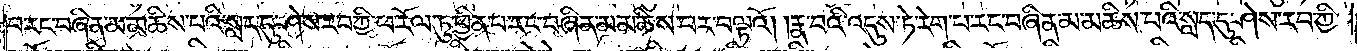པ་རང་བཞིན་མ་མཆིས་པའི་སླད་དུ་ཤེས་རབ་ཀྱི་ཕ་རོལ་ཏུ་ཕྱིན་པ་རང་བཞིན་མ་མཆིས་པར་བལྟའོ། །རྣ་བའི་འདུས་ཏེ་རེག་པ་རང་བཞིན་མ་མཆིས་པའི་སླད་དུ་ཤེས་རབ་ཀྱི་
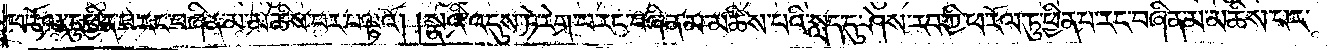ཕ་རོལ་ཏུ་ཕྱིན་པ་རང་བཞིན་མ་མཆིས་པར་བལྟའོ། །སྣའི་འདུས་ཏེ་རེག་པ་རང་བཞིན་མ་མཆིས་པའི་སླད་དུ་ཤེས་རབ་ཀྱི་ཕ་རོལ་ཏུ་ཕྱིན་པ་རང་བཞིན་མ་མཆིས་པར་
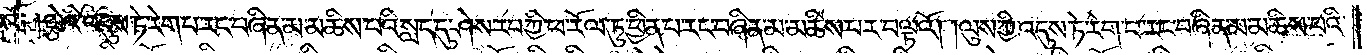བལྟའོ༑ །ལྕེའི་འདུས་ཏེ་རེག་པ་རང་བཞིན་མ་མཆིས་པའི་སླད་དུ་ཤེས་རབ་ཀྱི་ཕ་རོལ་ཏུ་ཕྱིན་པ་རང་བཞིན་མ་མཆིས་པར་བལྟའོ། །ལུས་ཀྱི་འདུས་ཏེ་རེག་པ་རང་བཞིན་མ་མཆིས་པའི་
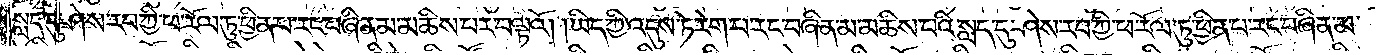སླད་དུ་ཤེས་རབ་ཀྱི་ཕ་རོལ་ཏུ་ཕྱིན་པ་རང་བཞིན་མ་མཆིས་པར་བལྟའོ། །ཡིད་ཀྱི་འདུས་ཏེ་རེག་པ་རང་བཞིན་མ་མཆིས་པའི་སླད་དུ་ཤེས་རབ་ཀྱི་ཕ་རོལ་ཏུ་ཕྱིན་པ་རང་བཞིན་མ་
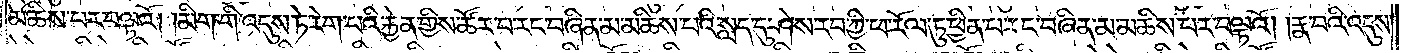མཆིས་པར་བལྟའོ། །མིག་གི་འདུས་ཏེ་རེག་པའི་རྐྱེན་གྱིས་ཚོར་བ་རང་བཞིན་མ་མཆིས་པའི་སླད་དུ་ཤེས་རབ་ཀྱི་ཕ་རོལ་ཏུ་ཕྱིན་པ་རང་བཞིན་མ་མཆིས་པར་བལྟའོ། །རྣ་བའི་འདུས་
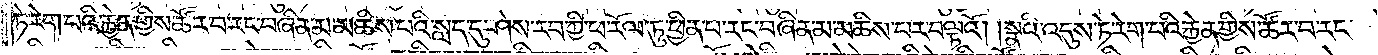ཏེ་རེག་པའི་རྐྱེན་གྱིས་ཚོར་བ་རང་བཞིན་མ་མཆིས་པའི་སླད་དུ་ཤེས་རབ་ཀྱི་ཕ་རོལ་ཏུ་ཕྱིན་པ་རང་བཞིན་མ་མཆིས་པར་བལྟའོ། །སྣའི་འདུས་ཏེ་རེག་པའི་རྐྱེན་གྱིས་ཚོར་བ་རང་
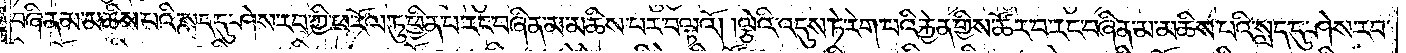བཞིན་མ་མཆིས་པའི་སླད་དུ་ཤེས་རབ་ཀྱི་ཕ་རོལ་ཏུ་ཕྱིན་པ་རང་བཞིན་མ་མཆིས་པར་བལྟའོ། །ལྕེའི་འདུས་ཏེ་རེག་པའི་རྐྱེན་གྱིས་ཚོར་བ་རང་བཞིན་མ་མཆིས་པའི་སླད་དུ་ཤེས་རབ་
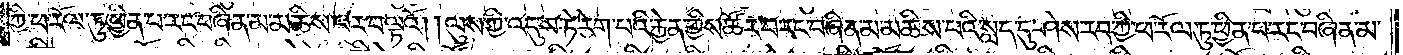ཀྱི་ཕ་རོལ་ཏུ་ཕྱིན་པ་རང་བཞིན་མ་མཆིས་པར་བལྟའོ། །ལུས་ཀྱི་འདུས་ཏེ་རེག་པའི་རྐྱེན་གྱིས་ཚོར་བ་རང་བཞིན་མ་མཆིས་པའི་སླད་དུ་ཤེས་རབ་ཀྱི་ཕ་རོལ་ཏུ་ཕྱིན་པ་རང་བཞིན་མ་
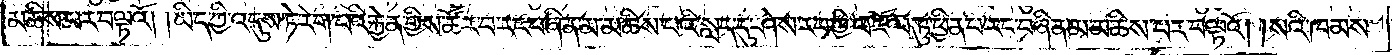མཆིས་པར་བལྟའོ། །ཡིད་ཀྱི་འདུས་ཏེ་རེག་པའི་རྐྱེན་གྱིས་ཚོར་བ་རང་བཞིན་མ་མཆིས་པའི་སླད་དུ་ཤེས་རབ་ཀྱི་ཕ་རོལ་ཏུ་ཕྱིན་པ་རང་བཞིན་མ་མཆིས་པར་བལྟའོ། །སའི་ཁམས་
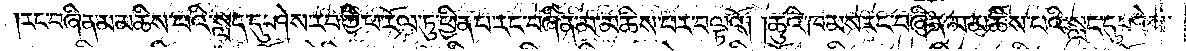རང་བཞིན་མ་མཆིས་པའི་སླད་དུ་ཤེས་རབ་ཀྱི་ཕ་རོལ་ཏུ་ཕྱིན་པ་རང་བཞིན་མ་མཆིས་པར་བལྟའོ། །ཆུའི་ཁམས་རང་བཞིན་མ་མཆིས་པའི་སླད་དུ་ཤེས་
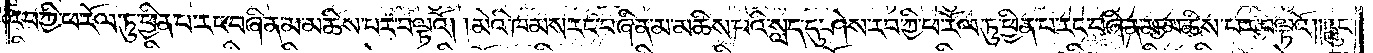རབ་ཀྱི་ཕ་རོལ་ཏུ་ཕྱིན་པ་རང་བཞིན་མ་མཆིས་པར་བལྟའོ། །མེའི་ཁམས་རང་བཞིན་མ་མཆིས་པའི་སླད་དུ་ཤེས་རབ་ཀྱི་ཕ་རོལ་ཏུ་ཕྱིན་པ་རང་བཞིན་མ་མཆིས་པར་བལྟའོ། །རླུང་
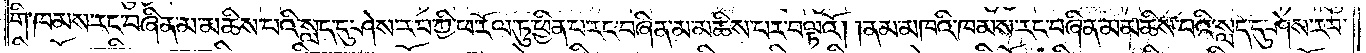གི་ཁམས་རང་བཞིན་མ་མཆིས་པའི་སླད་དུ་ཤེས་རབ་ཀྱི་ཕ་རོལ་ཏུ་ཕྱིན་པ་རང་བཞིན་མ་མཆིས་པར་བལྟའོ། །ནམ་མཁའི་ཁམས་རང་བཞིན་མ་མཆིས་པའི་སླད་དུ་ཤེས་རབ་
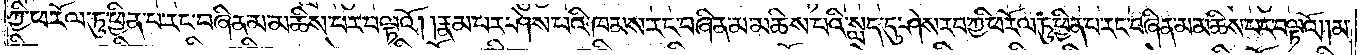ཀྱི་ཕ་རོལ་ཏུ་ཕྱིན་པ་རང་བཞིན་མ་མཆིས་པར་བལྟའོ། །རྣམ་པར་ཤེས་པའི་ཁམས་རང་བཞིན་མ་མཆིས་པའི་སླད་དུ་ཤེས་རབ་ཀྱི་ཕ་རོལ་ཏུ་ཕྱིན་པ་རང་བཞིན་མ་མཆིས་པར་བལྟའོ། །མ་
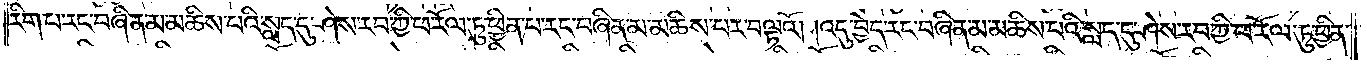རིག་པ་རང་བཞིན་མ་མཆིས་པའི་སླད་དུ་ཤེས་རབ་ཀྱི་ཕ་རོལ་ཏུ་ཕྱིན་པ་རང་བཞིན་མ་མཆིས་པར་བལྟའོ། །འདུ་བྱེད་རང་བཞིན་མ་མཆིས་པའི་སླད་དུ་ཤེས་རབ་ཀྱི་ཕ་རོལ་ཏུ་ཕྱིན་
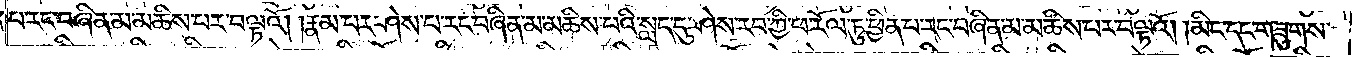པ་རང་བཞིན་མ་མཆིས་པར་བལྟའོ། །རྣམ་པར་ཤེས་པ་རང་བཞིན་མ་མཆིས་པའི་སླད་དུ་ཤེས་རབ་ཀྱི་ཕ་རོལ་ཏུ་ཕྱིན་པ་རང་བཞིན་མ་མཆིས་པར་བལྟའོ། །མིང་དང་གཟུགས་
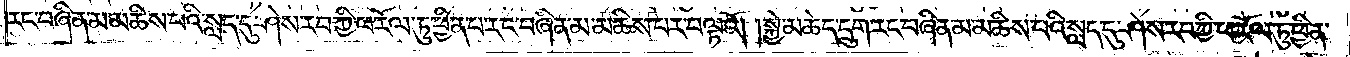རང་བཞིན་མ་མཆིས་པའི་སླད་དུ་ཤེས་རབ་ཀྱི་ཕ་རོལ་ཏུ་ཕྱིན་པ་རང་བཞིན་མ་མཆིས་པར་བལྟའོ། །སྐྱེ་མཆེད་དྲུག་རང་བཞིན་མ་མཆིས་པའི་སླད་དུ་ཤེས་རབ་ཀྱི་ཕ་རོལ་ཏུ་ཕྱིན་
